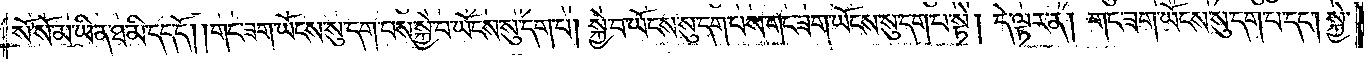སོ་སོ་མ་ཡིན་ཐ་མི་དད་དོ། །གང་ཟག་ཡོངས་སུ་དག་པས་སྐྱེ་བ་ཡོངས་སུ་དག་པ། སྐྱེ་བ་ཡོངས་སུ་དག་པས་གང་ཟག་ཡོངས་སུ་དག་པ་སྟེ། དེ་ལྟར་ན། གང་ཟག་ཡོངས་སུ་དག་པ་དང༌། སྐྱེ་
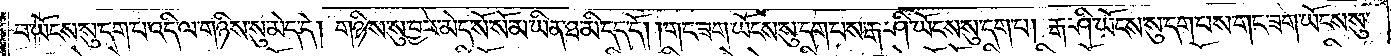བ་ཡོངས་སུ་དག་པ་འདི་ལ་གཉིས་སུ་མེད་དེ། གཉིས་སུ་བྱར་མེད་སོ་སོ་མ་ཡིན་ཐ་མི་དད་དོ། །གང་ཟག་ཡོངས་སུ་དག་པས་རྒ་ཤི་ཡོངས་སུ་དག་པ། རྒ་ཤི་ཡོངས་སུ་དག་པས་གང་ཟག་ཡོངས་སུ་
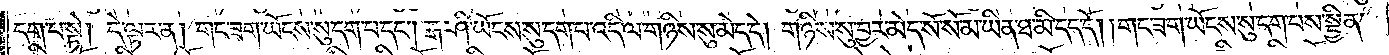དག་པ་སྟེ། དེ་ལྟར་ན། གང་ཟག་ཡོངས་སུ་དག་པ་དང༌། རྒ་ཤི་ཡོངས་སུ་དག་པ་འདི་ལ་གཉིས་སུ་མེད་དེ། གཉིས་སུ་བྱར་མེད་སོ་སོ་མ་ཡིན་ཐ་མི་དད་དོ། །གང་ཟག་ཡོངས་སུ་དག་པས་སྦྱིན་
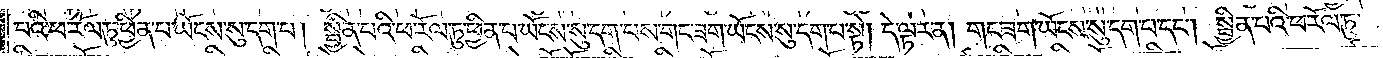པའི་ཕ་རོལ་ཏུ་ཕྱིན་པ་ཡོངས་སུ་དག་པ། སྦྱིན་པའི་ཕ་རོལ་ཏུ་ཕྱིན་པ་ཡོངས་སུ་དག་པས་གང་ཟག་ཡོངས་སུ་དག་པ་སྟེ། དེ་ལྟར་ན། གང་ཟག་ཡོངས་སུ་དག་པ་དང༌། སྦྱིན་པའི་ཕ་རོལ་ཏུ་
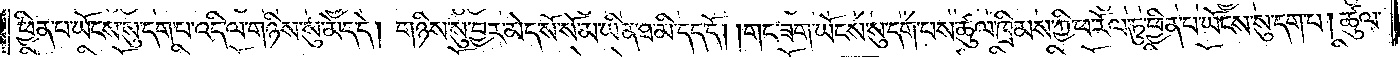ཕྱིན་པ་ཡོངས་སུ་དག་པ་འདི་ལ་གཉིས་སུ་མེད་དེ། གཉིས་སུ་བྱར་མེད་སོ་སོ་མ་ཡིན་ཐ་མི་དད་དོ། །གང་ཟག་ཡོངས་སུ་དག་པས་ཚུལ་ཁྲིམས་ཀྱི་ཕ་རོལ་ཏུ་ཕྱིན་པ་ཡོངས་སུ་དག་པ། ཚུལ་
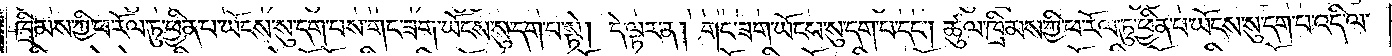ཁྲིམས་ཀྱི་ཕ་རོལ་ཏུ་ཕྱིན་པ་ཡོངས་སུ་དག་པས་གང་ཟག་ཡོངས་སུ་དག་པ་སྟེ། དེ་ལྟར་ན། གང་ཟག་ཡོངས་སུ་དག་པ་དང༌། ཚུལ་ཁྲིམས་ཀྱི་ཕ་རོལ་ཏུ་ཕྱིན་པ་ཡོངས་སུ་དག་པ་འདི་ལ་
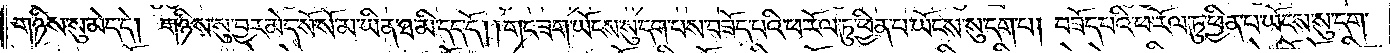གཉིས་སུ་མེད་དེ། གཉིས་སུ་བྱར་མེད་སོ་སོ་མ་ཡིན་ཐ་མི་དད་དོ། །གང་ཟག་ཡོངས་སུ་དག་པས་བཟོད་པའི་ཕ་རོལ་ཏུ་ཕྱིན་པ་ཡོངས་སུ་དག་པ། བཟོད་པའི་ཕ་རོལ་ཏུ་ཕྱིན་པ་ཡོངས་སུ་དག་
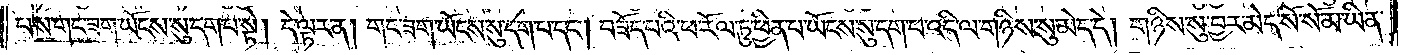པས་གང་ཟག་ཡོངས་སུ་དག་པ་སྟེ། དེ་ལྟར་ན། གང་ཟག་ཡོངས་སུ་དག་པ་དང༌། བཟོད་པའི་ཕ་རོལ་ཏུ་ཕྱིན་པ་ཡོངས་སུ་དག་པ་འདི་ལ་གཉིས་སུ་མེད་དེ། གཉིས་སུ་བྱར་མེད་སོ་སོ་མ་ཡིན་
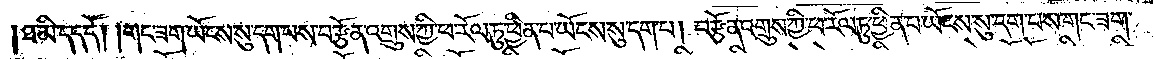ཐ་མི་དད་དོ། །གང་ཟག་ཡོངས་སུ་དག་པས་བརྩོན་འགྲུས་ཀྱི་ཕ་རོལ་ཏུ་ཕྱིན་པ་ཡོངས་སུ་དག་པ། བརྩོན་འགྲུས་ཀྱི་ཕ་རོལ་ཏུ་ཕྱིན་པ་ཡོངས་སུ་དག་པས་གང་ཟག་
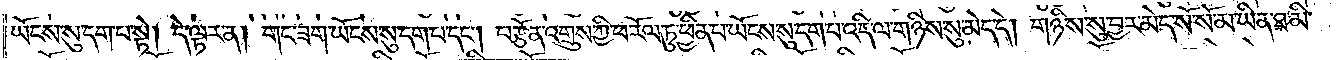ཡོངས་སུ་དག་པ་སྟེ། དེ་ལྟར་ན། གང་ཟག་ཡོངས་སུ་དག་པ་དང༌། བརྩོན་འགྲུས་ཀྱི་ཕ་རོལ་ཏུ་ཕྱིན་པ་ཡོངས་སུ་དག་པ་འདི་ལ་གཉིས་སུ་མེད་དེ། གཉིས་སུ་བྱར་མེད་སོ་སོ་མ་ཡིན་ཐ་མི་
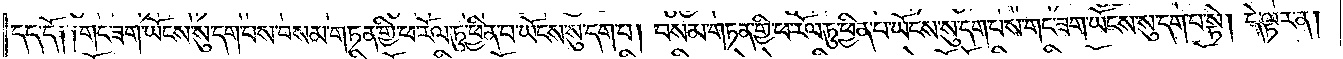དད་དོ༑ ༑གང་ཟག་ཡོངས་སུ་དག་པས་བསམ་གཏན་གྱི་ཕ་རོལ་ཏུ་ཕྱིན་པ་ཡོངས་སུ་དག་པ། བསམ་གཏན་གྱི་ཕ་རོལ་ཏུ་ཕྱིན་པ་ཡོངས་སུ་དག་པས་གང་ཟག་ཡོངས་སུ་དག་པ་སྟེ། དེ་ལྟར་ན།
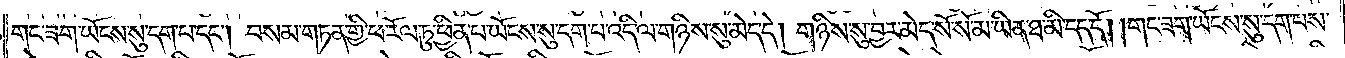གང་ཟག་ཡོངས་སུ་དག་པ་དང༌། བསམ་གཏན་གྱི་ཕ་རོལ་ཏུ་ཕྱིན་པ་ཡོངས་སུ་དག་པ་འདི་ལ་གཉིས་སུ་མེད་དེ། གཉིས་སུ་བྱར་མེད་སོ་སོ་མ་ཡིན་ཐ་མི་དད་དོ། །གང་ཟག་ཡོངས་སུ་དག་པས་
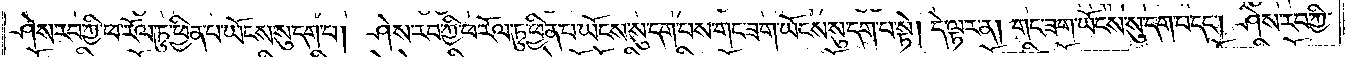ཤེས་རབ་ཀྱི་ཕ་རོལ་ཏུ་ཕྱིན་པ་ཡོངས་སུ་དག་པ། ཤེས་རབ་ཀྱི་ཕ་རོལ་ཏུ་ཕྱིན་པ་ཡོངས་སུ་དག་པས་གང་ཟག་ཡོངས་སུ་དག་པ་སྟེ། དེ་ལྟར་ན། གང་ཟག་ཡོངས་སུ་དག་པ་དང༌། ཤེས་རབ་ཀྱི་
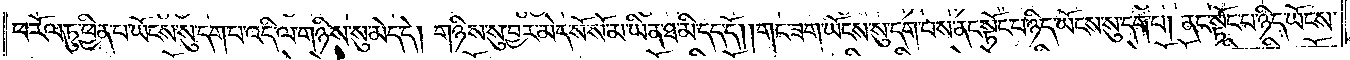ཕ་རོལ་ཏུ་ཕྱིན་པ་ཡོངས་སུ་དག་པ་འདི་ལ་གཉིས་སུ་མེད་དེ། གཉིས་སུ་བྱར་མེད་སོ་སོ་མ་ཡིན་ཐ་མི་དད་དོ། །གང་ཟག་ཡོངས་སུ་དག་པས་ནང་སྟོང་པ་ཉིད་ཡོངས་སུ་དག་པ། ནང་སྟོང་པ་ཉིད་ཡོངས་
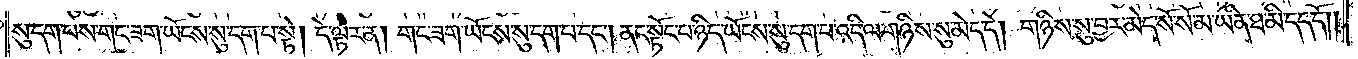སུ་དག་པས་གང་ཟག་ཡོངས་སུ་དག་པ་སྟེ། དེ་ལྟར་ན། གང་ཟག་ཡོངས་སུ་དག་པ་དང༌། ནང་སྟོང་པ་ཉིད་ཡོངས་སུ་དག་པ་འདི་ལ་གཉིས་སུ་མེད་དེ། གཉིས་སུ་བྱར་མེད་སོ་སོ་མ་ཡིན་ཐ་མི་དད་དོ༎
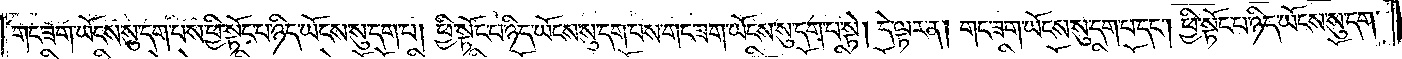གང་ཟག་ཡོངས་སུ་དག་པས་ཕྱི་སྟོང་པ་ཉིད་ཡོངས་སུ་དག་པ། ཕྱི་སྟོང་པ་ཉིད་ཡོངས་སུ་དག་པས་གང་ཟག་ཡོངས་སུ་དག་པ་སྟེ། དེ་ལྟར་ན། གང་ཟག་ཡོངས་སུ་དག་པ་དང༌། ཕྱི་སྟོང་པ་ཉིད་ཡོངས་སུ་དག་
